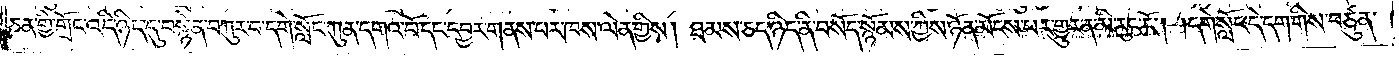ཅན་གྱི་གྲོང་འདི་ཉིད་དུ་བསྙེན་བཀུར་བ་དགེ་སློང་ཀུན་དགའ་བོ་དང་དབྱར་གནས་པར་ཁས་ལེན་གྱིས། ཐམས་ཅད་ཉིད་ནི་བསོད་སྙོམས་ཀྱིས་ཉོན་མོངས་པར་གྱུར་ན་མི་རུང་ངོ༌། །དགེ་སློང་དེ་དག་གིས་བཙུན་
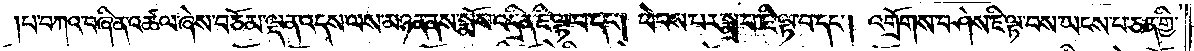པ་བཀའ་བཞིན་འཚལ་ཞེས་བཅོམ་ལྡན་འདས་ལས་མཉན་ནས་སྨོས་འདྲིན་ཇི་ལྟ་བ་དང༌། ཕེབས་པར་སྨྲ་བ་ཇི་ལྟ་བ་དང༌། འགྲོགས་བཤེས་ཇི་ལྟ་བས་ཡངས་པ་ཅན་གྱི་
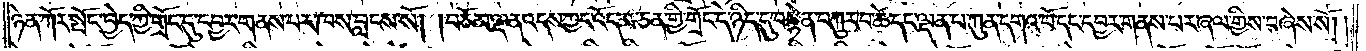ཉེན་ཀོར་སྤོང་བྱེད་ཀྱི་གྲོང་དུ་དབྱར་གནས་པར་ཁས་བླངས་སོ། །བཅོམ་ལྡན་འདས་ཀྱང་འོད་མ་ཅན་གྱི་གྲོང་དེ་ཉིད་དུ་བསྙེན་བཀུར་བ་ཚེ་དང་ལྡན་པ་ཀུན་དགའ་བོ་དང་དབྱར་གནས་པར་ཞལ་གྱིས་བཞེས་སོ། །
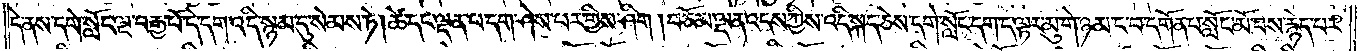དེ་ནས་དགེ་སློང་ལྔ་བརྒྱ་པོ་དེ་དག་འདི་སྙམ་དུ་སེམས་ཏེ། ཚེ་དང་ལྡན་པ་དག་ཤེས་པར་གྱིས་ཤིག །བཅོམ་ལྡན་འདས་ཀྱིས་འདི་སྐད་ཅེས་དགེ་སློང་དག་ད་ལྟར་མུ་གེ་ཉམ་ང་བ་དགོན་པ་སློང་མོ་བས་རྙེད་པར་
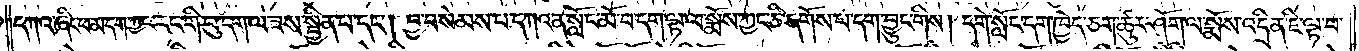དཀའ་ཞིང་ཕ་མ་དག་ཀྱང་རང་གི་བུ་དག་ལ་ཟས་སྦྱིན་པ་དང༌། བྱ་བ་སེམས་པ་དཀའ་ན་སློང་མོ་བ་དག་ལྟ་ལ་སྨོས་ཀྱང་ཅི་དགོས་པ་དག་བྱུང་གིས། དགེ་སློང་དག་ཁྱེད་ཅག་ཚུར་ཤོག་ལ་སྨོས་འདྲིན་ཇི་ལྟ་བ་
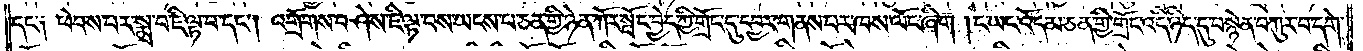དང་༑ ཕེབས་པར་སྨྲ་བ་ཇི་ལྟ་བ་དང༌། འགྲོགས་བཤེས་ཇི་ལྟ་བས་ཡངས་པ་ཅན་གྱི་ཉེན་ཀོར་སྤོང་བྱེད་ཀྱི་གྲོང་དུ་དབྱར་གནས་པར་ཁས་ལོང་ཞིག །ང་ཡང་འོད་མ་ཅན་གྱི་གྲོང་འདི་ཉིད་དུ་བསྙེན་བཀུར་བ་དགེ་
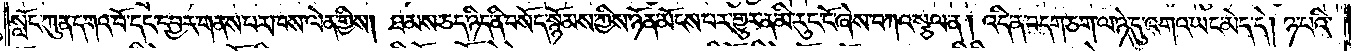སློང་ཀུན་དགའ་བོ་དང་དབྱར་གནས་པར་ཁས་ལེན་གྱིས། ཐམས་ཅད་ཉིད་ནི་བསོད་སྙོམས་ཀྱིས་ཉོན་མོངས་པར་གྱུར་ན་མི་རུང་ངོ་ཞེས་བཀའ་སྩལ་ན། འདི་ན་བདག་ཅག་ལ་ཉེ་དུ་འགའ་ཡང་མེད་དེ། ཉ་པའི་
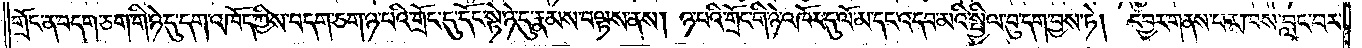གྲོང་ན་བདག་ཅག་གི་ཉེ་དུ་དག་འཁོད་ཀྱིས་བདག་ཅག་ཉ་པའི་གྲོང་དུ་དོང་སྟེ་ཉེ་དུ་རྣམས་བལྟས་ནས། ཉ་པའི་གྲོང་གི་ཉེ་འཁོར་དུ་ལོ་མ་དང་འདབ་མའི་སྤྱིལ་བུ་དག་བྱས་ཏེ། དབྱར་གནས་པར་ཁས་བླང་བར་
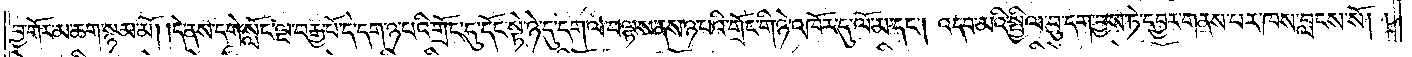བྱ་གོར་མ་ཆག་སྙམ་མོ། །དེ་ནས་དགེ་སློང་ལྔ་བརྒྱ་པོ་དེ་དག་ཉ་པའི་གྲོང་དུ་དོང་སྟེ་ཉེ་དུ་དག་ལ་བལྟས་ནས་ཉ་པའི་གྲོང་གི་ཉེ་འཁོར་དུ་ལོ་མ་དང༌། འདབ་མའི་སྤྱིལ་བུ་དག་བྱས་ཏེ་དབྱར་གནས་པར་ཁས་བླངས་སོ། །
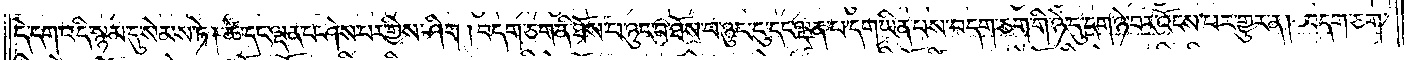དེ་དག་འདི་སྙམ་དུ་སེམས་ཏེ། ཚེ་དང་ལྡན་པ་ཤེས་པར་གྱིས་ཤིག །བདག་ཅག་ནི་ཐོས་པ་ཉུང་བ་ཐོས་པ་ཉུང་ངུ་དང་ལྡན་པ་དག་ཡིན་པས་བདག་ཅག་གི་ཉེ་དུ་དག་ཉེ་བར་འོངས་པར་གྱུར་ན། བདག་ཅག་
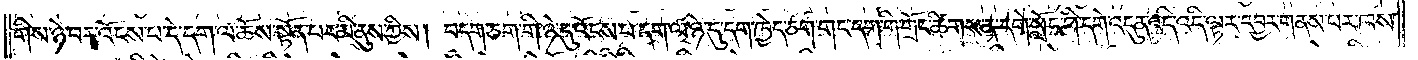གིས་ཉེ་བར་འོངས་པ་དེ་དག་ལ་ཆོས་སྟོན་པར་མི་ནུས་ཀྱིས། བདག་ཅག་གི་ཉེ་དུ་འོངས་པ་དག་ལ་ཉེ་དུ་དག་ཁྱེད་ཅག་གང་དག་གི་གྲོང་ཚིགས་ན་དགེ་སློང་གི་དགེ་འདུན་འདི་འདི་ལྟར་དབྱར་གནས་པར་ཁས་
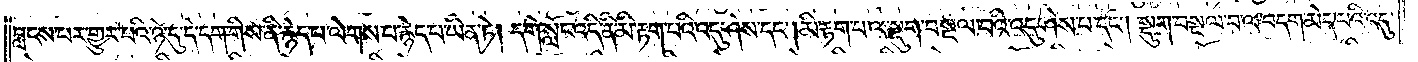བླངས་པར་གྱུར་པའི་ཉེ་དུ་དེ་དག་གིས་ནི་རྙེད་པ་ལེགས་པ་རྙེད་པ་ཡིན་ཏེ། དགེ་སློང་འདི་ནི་མི་རྟག་པའི་འདུ་ཤེས་དང༌། མི་རྟག་པ་ལ་སྡུག་བསྔལ་བའི་འདུ་ཤེས་པ་དང༌། སྡུག་བསྔལ་བ་ལ་བདག་མེད་པའི་འདུ་
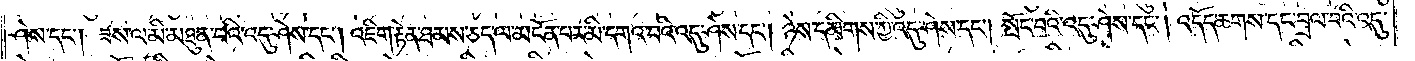ཤེས་དང༌། ཟས་ལ་མི་མཐུན་པའི་འདུ་ཤེས་དང༌། འཇིག་རྟེན་ཐམས་ཅད་ལ་མངོན་པར་མི་དགའ་བའི་འདུ་ཤེས་དང༌། ཉེས་དམིགས་ཀྱི་འདུ་ཤེས་དང༌། སྤོང་བའི་འདུ་ཤེས་དང༌། འདོད་ཆགས་དང་བྲལ་བའི་འདུ་
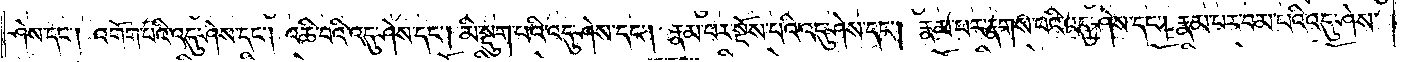ཤེས་དང༌། འགོག་པའི་འདུ་ཤེས་དང༌། འཆི་བའི་འདུ་ཤེས་དང༌། མི་སྡུག་པའི་འདུ་ཤེས་དང༌། རྣམ་པར་སྔོས་པའི་འདུ་ཤེས་དང༌། རྣམ་པར་རྣགས་པའི་འདུ་ཤེས་དང༌། རྣམ་པར་བམ་པའི་འདུ་ཤེས་
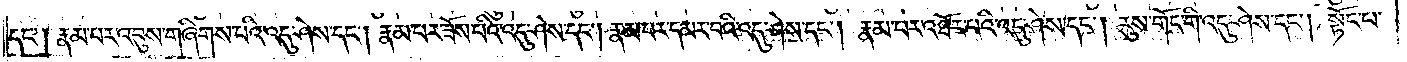དང༌། རྣམ་པར་འབུས་གཞིགས་པའི་འདུ་ཤེས་དང༌། རྣམ་པར་ཟོས་པའི་འདུ་ཤེས་དང༌། རྣམ་པར་དམར་བའི་འདུ་ཤེས་དང༌། རྣམ་པར་འཐོར་བའི་འདུ་ཤེས་དང༌། རུས་གོང་གི་འདུ་ཤེས་དང༌། སྟོང་པ་
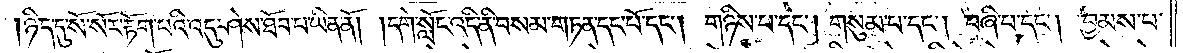།ཉིད་དུ་སོ་སོར་རྟོག་པའི་འདུ་ཤེས་ཐོབ་པ་ཡིན་ནོ། །དགེ་སློང་འདི་ནི་བསམ་གཏན་དང་པོ་དང༌། གཉིས་པ་དང༌། གསུམ་པ་དང༌། བཞི་པ་དང༌། བྱམས་པ་
